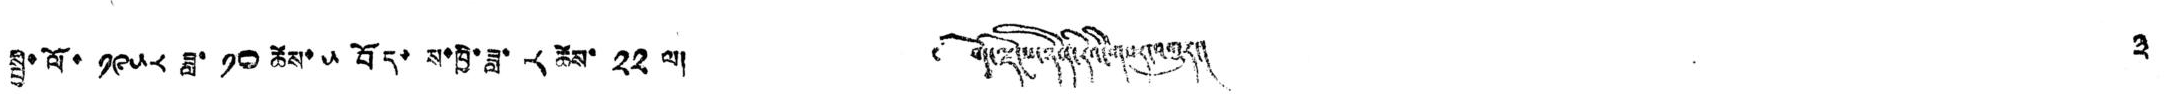སྤྱི་ལོ་ ༡༩༥༨ ཟླ་ ༡༠ ཚེས་ ༥ བོད་ ས་ཁྱི་ཟླ་ ༨ ཚེས་ ༢༢ ལ། ༄ བོད་ལྗོངས་ཉིན་རེའི་གསར་འགྱུར། ༣
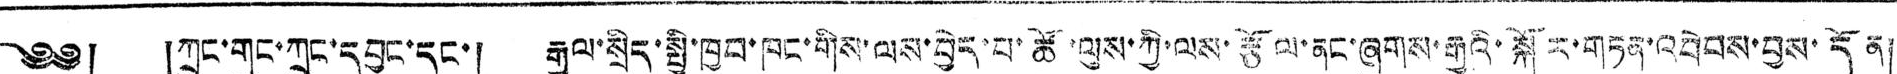༄༅། །ཀྲུང་གུང་ཀྲུང་དབྱང་དང་། རྒྱལ་སྲིད་སྤྱི་ཁྱབ་ཁང་གིས་ལས་བྱེད་པ་ཚོ་ལུས་ཀྱི་ལས་རྩོལ་ནང་ཞུགས་རྒྱུའི་སྐོར་གཏན་འབེབས་བྱས་དོན།
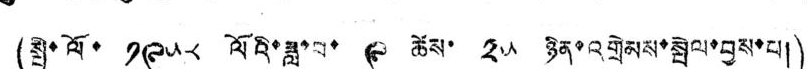(སྤྱི་ལོ་ ༡༩༥༨ ལོའི་ཟླ་བ་ ༩ ཚེས་ ༢༥ ཉིན་འགྲེམས་སྤེལ་བྱས་པ།)
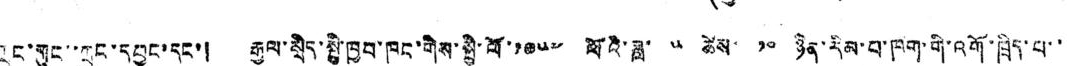ཀྲུང་གུང་་ཀྲུང་དབྱང་དང་། རྒྱལ་སྲིད་སྤྱི་ཁྱབ་ཁང་གིས་སྤྱི་ལོ་༡༩༥༧ ལོའི་ཟླ་ ༥ ཚེས་ ༡༠ ཉིན་རིམ་པ་ཁག་གི་འགོ་ཁྲིད་པ་་
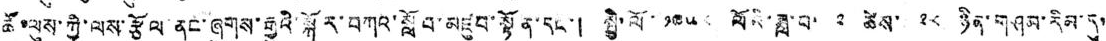ཚོ་ལུས་ཀྱི་ལས་རྩོལ་ནང་ཞུགས་རྒྱུའི་སྐོར་བཀའ་སློབ་མཛུབ་སྟོན་དང་། སྤྱི་ལོ་ ༡༩༥༨ ལོའི་ཟླ་བ་ ༢ ཚེས་ ༢༨ ཉིན་གཤམ་རིམ་དུ་
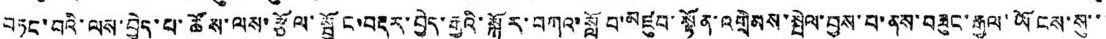བཏང་བའི་ལས་བྱེད་པ་ཚོས་ལས་རྩོལ་སྦྱོང་བརྡར་བྱེད་རྒྱུའི་སྐོར་བཀའ་སློབ་མཛུབ་སྟོན་འགྲེམས་སྤེལ་བྱས་པ་ནས་བཟུང་རྒྱལ་ཡོངས་སུ་་་
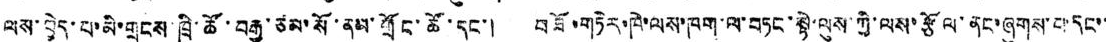ལས་བྱེད་པ་མི་གྲངས་ཁྲི་ཚོ་བརྒྱ་ཙམ་སོ་ནམ་གྲོང་ཚོ་དང་། བཟོ་གཏེར་ཁེ་ལས་ཁག་ལ་བཏང་སྟེ་ལུས་ཀྱི་ལས་རྩོལ་ནང་ཞུགས་པ་དང་་
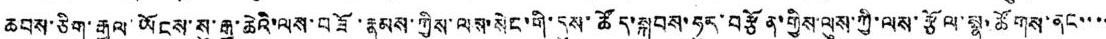ཆབས་ཅིག་རྒྱལ་ཡོངས་སུ་རྒྱ་ཆེའི་ལས་བཟོ་རྣམས་ཀྱིས་ལས་སེང་གི་དུས་ཚོད་སྐབས་ཧུར་བརྩོན་གྱིས་ལུས་ཀྱི་ལས་རྩོལ་སྣ་ཚོགས་ནང་་་་
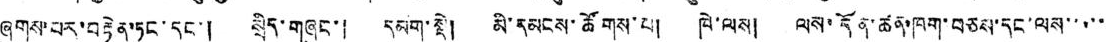ཞུགས་པར་བརྟེན་ཏང་དང་། སྲིད་གཞུང་། དམག་སྡེ། མི་དམངས་ཚོགས་པ། ཁེ་ལས། ལས་དོན་ཚན་ཁག་བཅས་དང་ལས་་་་་
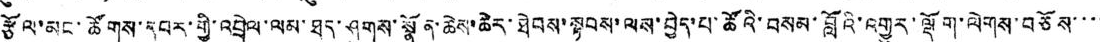རྩོལ་མང་ཚོགས་དབར་གྱི་འབྲེལ་ལམ་ཐད་ཤུགས་སྣོན་ཆེས་ཆེར་ཐེབས་སྟབས་ལས་བྱེད་པ་ཚོའི་བསམ་བློའི་འགྱུར་ལྡོག་ལེགས་བཅོས་་་་
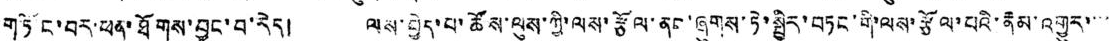གཏོང་བར་ཕན་ཐོགས་བྱུང་བ་རེད། ལས་བྱེད་པ་ཚོས་ལུས་ཀྱི་ལས་རྩོལ་ནང་ཞུགས་ཏེ་སྤྱིར་བཏང་གི་ལས་རྩོལ་པའི་རྣམ་འགྱུར་་་་
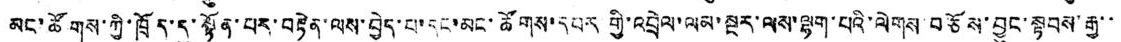མང་ཚོགས་ཀྱི་ཁྲོད་དུ་སྟོན་པར་བརྟེན་ལས་བྱེད་པ་དང་མང་ཚོགས་དབར གྱི་འབྲེལ་ལམ་སྔར་ལས་ལྷག་པའི་ལེགས་བཅོས་བྱུང་སྟབས་རྒྱ་་
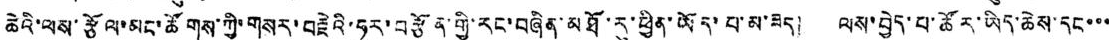ཆེའི་ལས་རྩོལ་མང་ཚོགས་ཀྱི་གསར་བརྗེའི་ཧུར་བརྩོན་གྱི་རང་བཞིན་མཐོ་རུ་ཕྱིན་ཡོད་པ་མ་ཟད། ལས་བྱེད་པ་ཚོར་ཡིད་ཆེས་དང་་་
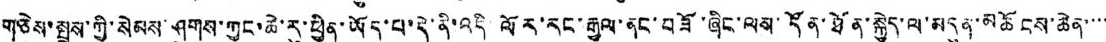གཅེས་སྤྲས་ཀྱི་སེམས་ཤུགས་ཀྱང་ཆེ་རུ་ཕྱིན་ཡོད་པ་དེ་ནི་འདི ལོར་རང་རྒྱལ་ནང་བཟོ་ཞིང་ལས་དོན་ཐོན་སྐྱེད་ལ་མདུན་མཆོངས་ཆེན་་་་
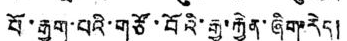པོ་རྒྱག་པའི་གཙོ་བོའི་རྒྱུ་རྐྱེན་ཞིག་རེད།
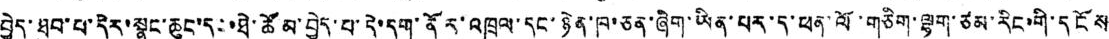བྱེད་ཐུབ་པ་དེར་སྣང་ཆུང་དང་ཐེ་ཚོམ་བྱེད་པ་དེ་དག་ནོར་འཁྲུལ་དང་ཉེན་ཁ་ཅན་ཞིག་ཡིན་པར་ད་ཕན་ལོ་གཅིག་ལྷག་ཙམ་རིང་གི་དངོས
